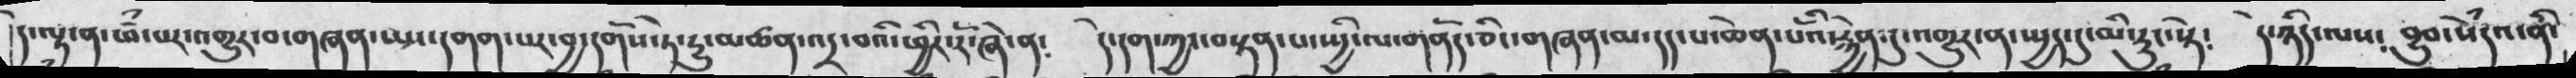དེ་ལྟ་ན་ཕཾ་པར་འགྱུར་བ་གཞན་སྤང་དགག་པར་བྱ་དགོས་ཏེ་རྱུ་མཚན་འདྲ་བའི་ཕྱིར་རོ་ཞེ་ན༴  དེ་དག་ཀྱང་བསྟན་པ་སྤྱི་ལ་གནོད་ཅིང་གཞན་མ་དད་པ་ཆེན་པོའི་རྐྱེན་དུ་འགྱུར་ན་སྤྱད་དུ་མི་རུང་སྟེ༴  དེ་ཉིད་ལས༴ བྱུབ་སེཾདའ་ནི་
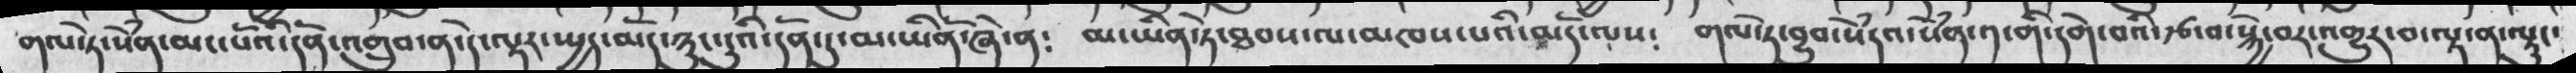གལ་ཏེ་སེཾན་མང་པོའི་དོན་འགྲུབ་ན་དེ་ལྟར་སྤྱད་མོད་ཉུང་ངུའི་དོན་དུ་མ་ཡིན་ཞེ་ན༴  མ་ཡིན་ཏེ་ཐབས་ལ་མཁས་པའི་མདོ་ལས༴  གལ་ཏེ་བྱུབ་སེཾདའ་སེཾན་༡་གི་དགེ་བའི་རྩ་བ་སྐྱེ་བར་འགྱུར་བ་ལྟ་ན་ལྟུང་
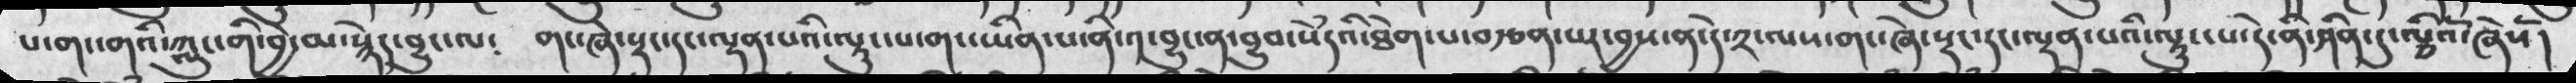པ་གང་གའི་ཀླུང་གི་བྱེ་མ་སྙེད་བྱུང་ལ༴  གང་ཞེ་སྡང་དང་ལྡན་པའི་ལྟུང་པ་གང་ཡིན་པ་ནི་༡་བྱུང་ན་བྱུབ་སེཾདའི་ཐེག་པ་བརྩན་པར་བྱས་ན་དེ་༢་ལས་གང་ཞེ་སྡང་དང་ལྡན་པའི་ལྟུང་པ་དེ་ནི་ཤིན་དུ་ལྕིའོ་ཞེསོ།
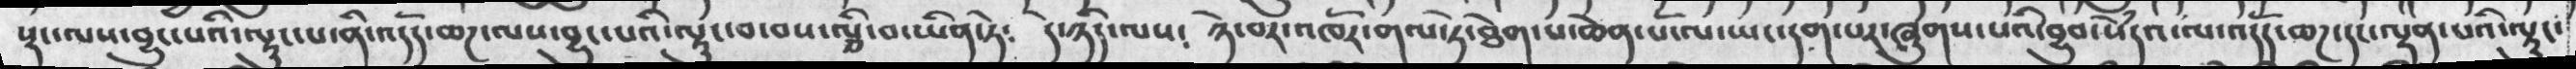སྡང་ལས་བྱུང་པའི་ལྟུང་པ་ནི་འདོད་ཆཌ་ལས་བྱུང་པའི་ལྟུང་བ་བས་ལྕི་བ་ཡིན་ཏེ༴ དེ་ཉིད་ལས༴ ཉེ་བར་འཁོར་གལ་ཏེ་ཐེག་པ་ཆེན་པོ་ལ་ཡང་དག་པར་ཞུགས་པའི་བྱུབ་སེཾདའ་ལ་འདོད་ཆཌ་དང་ལྡན་པའི་ལྟུང་
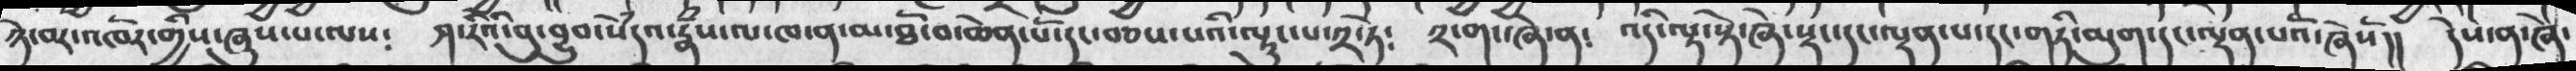ཉེ་བར་འཁོར་གྱིས་ཞུས་པ་ལས༴ ཤ་རིའི་བུ་བྱུབ་སེཾདའ་རྣཾས་ལ་ཁ་ན་མ་ཐོ་བ་ཆེན་པོ་དང་བཅས་པའི་ལྟུང་པ་༢་ཏེ༴ ༢་གང་ཞེ་ན༴ འདི་ལྟར་སྟེ་ཞེ་སྡང་དང་ལྡན་པ་དང་གཏི་མུག་དང་ལྡན་པའོ་ཞེསོ།། དེས་ན་ཞེ་
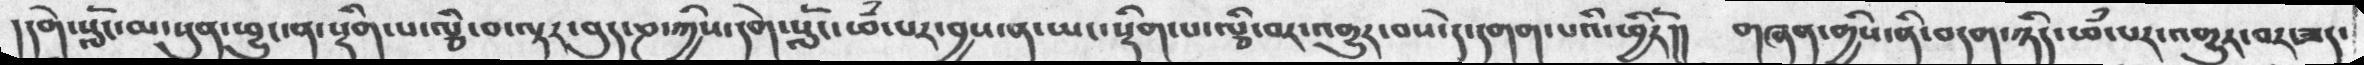།དགེ་སློང་མ་སུན་ཕྱུང་ན་སྡིག་པ་ལྕི་བ་ལྟར་བུད་ཎ་ཀྱིས་དགེ་སློང་ཕཾ་པར་བྱས་ན་ཡང་སྡིག་པ་ལྕི་བར་འགྱུར་བས་དེ་དགག་པའི་ཕྱིརོ།།  གཞན་གྱིས་ནི་བདག་ཉིད་ཕཾ་པར་འགྱུར་བར་ཟད་
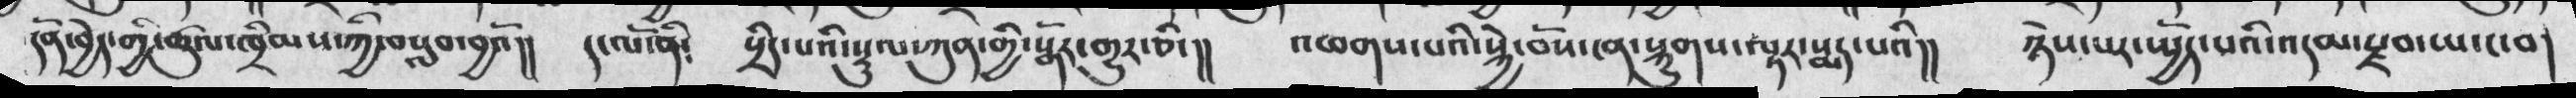དོན་བྱེད་གྱི་ཚུལ་ཁྲིམས་ཀྱི་བསླབ་བྱའོ།།  ད་ལོ་ནི༴ སྲིད་པའི་སྡུལ་ཀུན་གྱི་སྒོར་གྱུར་ཅི་།།  འཕགས་པའི་སྐྱེ་བོས་ངན་སྐྱུགས་ལྟར་སྨད་པའི།།  ཉེས་པར་སྤྱོད་པའི་འདམ་སྫབ་ཡ་ང་བ།
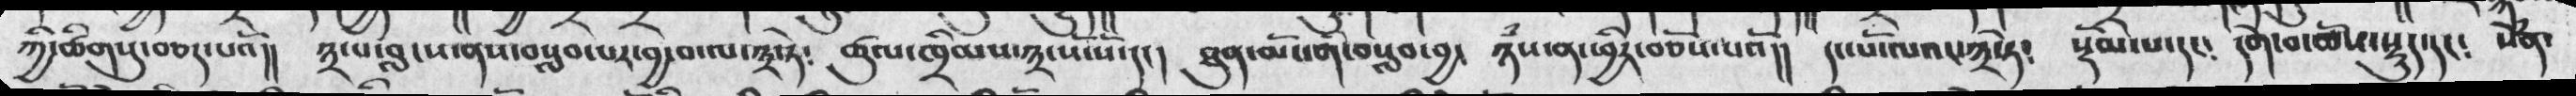ཀྱི་ཚིགསུ་བཅད་པའོ།།   ༣་པ་བླངས་ནས་བསླབ་པར་བྱ་བ་ལ་༣་ཏེ༴    ཚུལ་ཁྲིམས་༣་སོ་སོ་དང།  ཐུན་མོངགི་བསླབ་བྱ་    ཉཾས་ན་ཕྱིར་བཅོས་པའོ།།   དང་པོ་ལའང་༣་ཏེ༴   སྡོམ་པ་དང༴   དགེ་བ་ཆོས་སྡུད་དང༴  སེཾན་
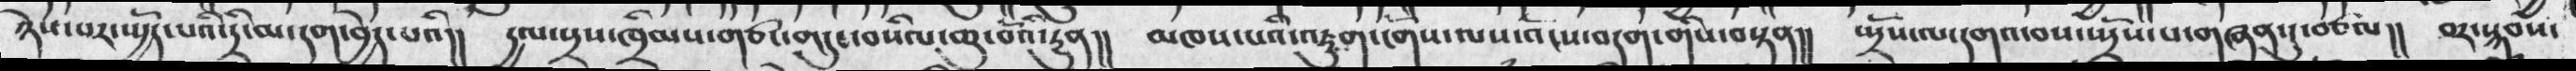ཉེས་པར་སྤྱོད་པའི་དྲི་མ་དག་བྱེད་པའི།།  དྱལ་སྲས་ཁྲིམས་གཙང་གདུང་བསིལ་ཆུ་བོའི་རྱུན།།  མཁས་པའི་འཇུག་ངོགས་ལས་འོངས་བདག་གིས་བསྟན།།  སྤྲོས་ལ་དགའ་བས་སྤྲོས་པ་གཞན་དུ་བཙལ།།  བར་སྐབས་
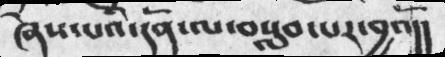ཞེས་པའི་དོན་ལ་བསླབ་པར་བྱའོ།།
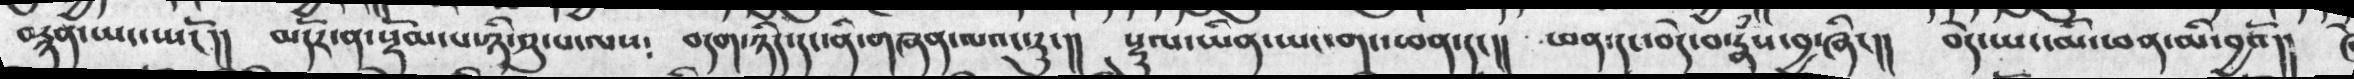བརྙན་ཡང་ཡོང།། མདོར་ན་སྡོམ་པ་ཉི་ཤུ་པ་ལས༴  བདག་ཉིད་དང་ནི་གཞན་ལའང་རུང།།  སྡུལ་ཡིན་ཡང་གང་ཕན་དང།།  ཕན་དང་བདེ་བ་རྣཾས་བྱ་ཞིང།།  བདེ་ཡང་མི་ཕན་མི་བྱའོ།།
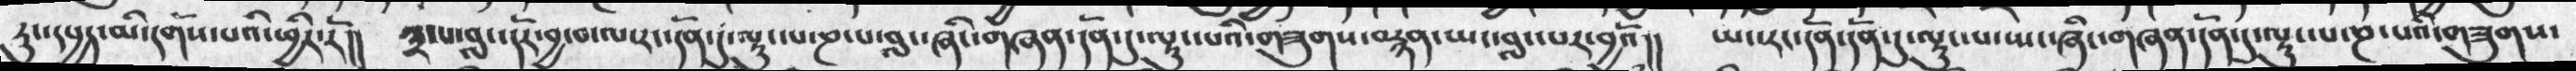རུང་དཔྱད་མི་དགོས་པའི་ཕྱིར་རོ།། ༣་པ་བླང་དོར་བྱ་བ་ལ་རང་དོན་དུ་ལྟུང་པ་ཎ་པ་བླང་ཞིང་གཞན་དོན་དུ་ལྟུང་པའི་གཟུགས་བརྙན་ཡང་བླང་པར་བྱའོ།།  ཡང་རང་དོན་དོན་དུ་ལྟུང་པ་ཡང་ཞིང་གཞན་དོན་དུ་ལྟུང་པ་ཎ་པའི་གཟུགས་
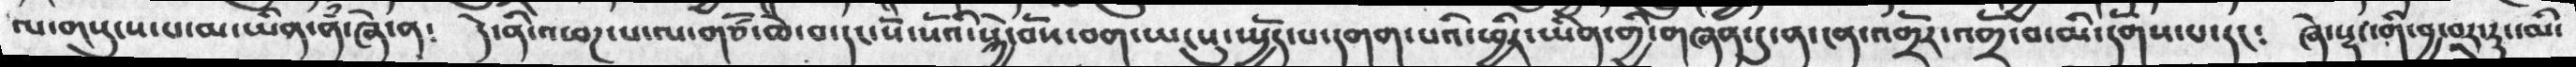ལ་གསུངས་པ་མ་ཡིན་ནཾ་ཞེ་ན༴  དེ་ནི་འཕཌ་པ་ལ་གཙོ་ཆེ་བ་དང་སོ་སོའི་སྐྱེ་བོས་བག་ཡངསུ་སྤྱོད་པ་དགག་པའི་ཕྱིར་ཡིན་གྱི་གཞན་དུ་ན་ངན་འགྲོར་འགྲོ་བ་མི་དགོས་པ་དང༴  ཞེ་སྡང་གི་བྱ་བར་རུང་མི་
